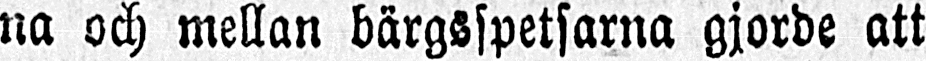na och mellan bärgsspetsarna gjorde att
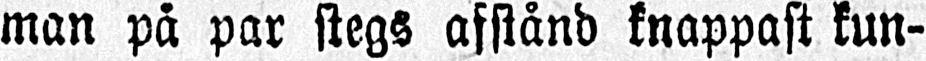man på par stegs afstånd knappast kun-
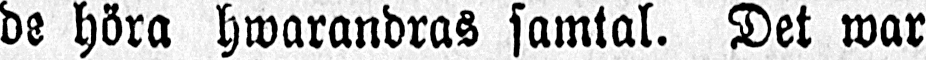de höra hwarandras samtal. Det war
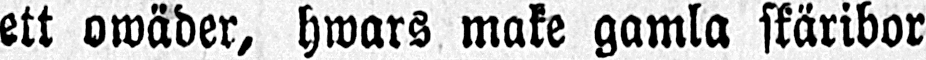ett owäder, hwars make gamla skäribor
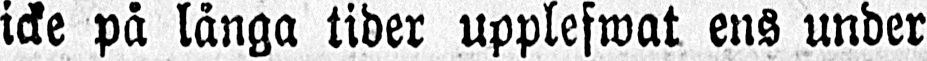icke på långa tider upplefwat ens under
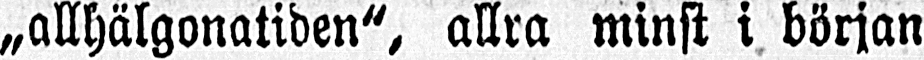„allhälgonatiden", allra minst i början
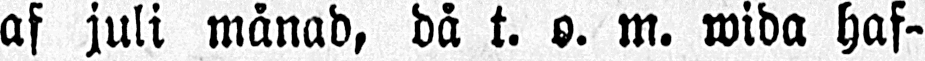af juli månad, då t. o. m. wida haf-
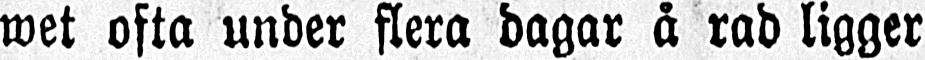wet ofta under flera dagar å rad ligger
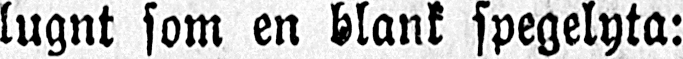lugnt som en blank spegelyta:
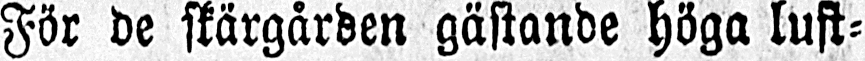För de skärgården gästande höga lust-
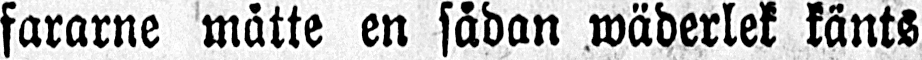fararne måtte en sådan wäderlek känts
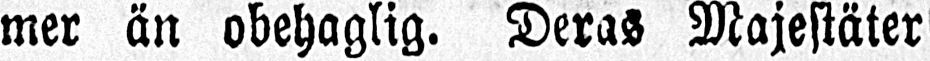mer än obehaglig. Deras Majestäter
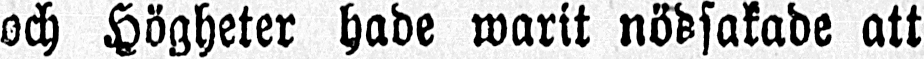och Högheter hade warit nödsakade att
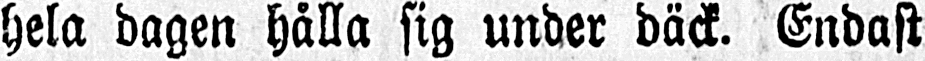hela dagen hålla sig under däck. Endast
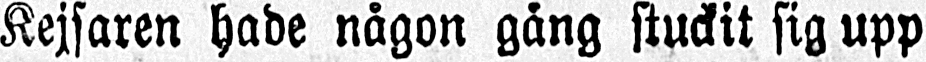Kejsaren hade någon gång stuckit sig upp
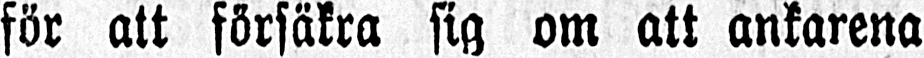för att försäkra sig om att ankarena
